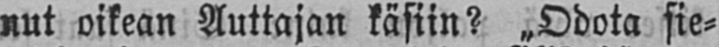nut oikean Auttajan käsiin? „Odota sie-
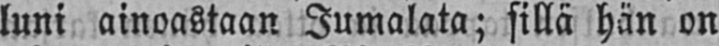luni ainoastaan Jumalata; sillä hän on
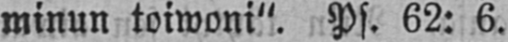minun toiwoni". Ps. 62: 6.
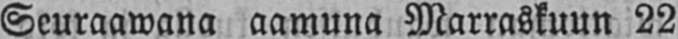Seuraawana aamuna Marraskuun 22
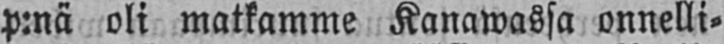p:nä oli matkamme Kanawassa onnelli-
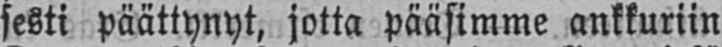sesti päättynyt, jotta pääsimme ankkuriin
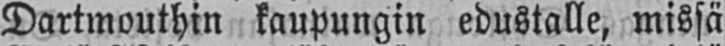Dartmouthin kaupungin edustalle, missä
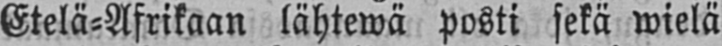Etelä-Afrikaan lähtewä posti sekä wielä
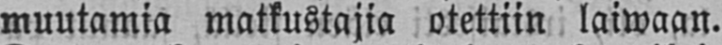muutamia matkustajia otettiin laiwaan.
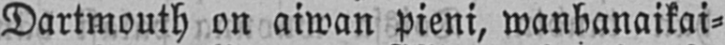Dartmouth on aiwan pieni, wanhanaikai-
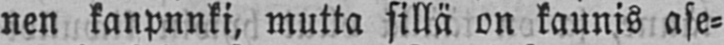nen kanpnnki, mutta sillä on kaunis ase-
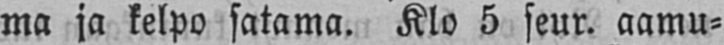ma ja kelpo satama. Klo 5 seur. aamu-
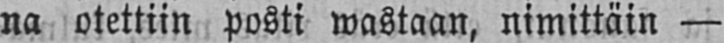na otettiin posti wastaan, nimittäin —
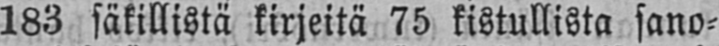183 säkillistä kirjeitä 75 kistullista sano-
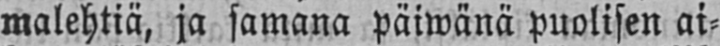malehtiä, ja samana päiwänä puolisen ai-
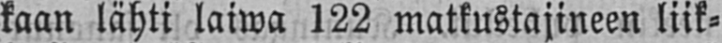kaan lähti laiwa 122 matkustajineen liik-
